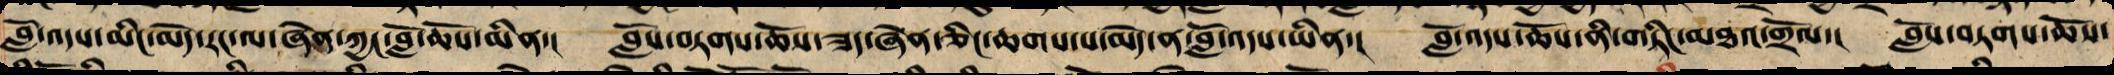བློ་འདས་མིང་མེད་རང་ལ་ཞེན་ཀྱང་བློ་ཆོས་ཡིན་། བློས་བཏགས་ཆོས་ཟད་ཞེན་ཅིང་ཆགས་པ་མེད་ན་བློ་འདས་ཡིན་། བློ་འདས་ཆོས་ནི་གཏིང་མཐའ་གྲོལ་། བློས་བཏགས་ཆོས་
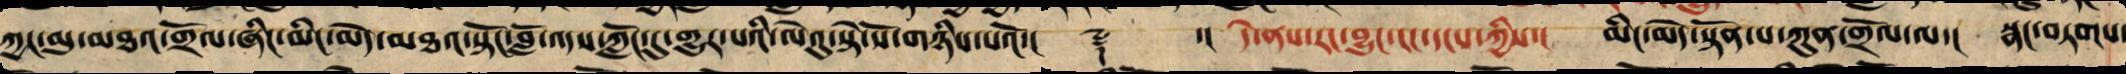ཀྱང་མུ་མཐའ་གྲོལ་ཞིང་མིང་མེད་མཐའ་སྟོང་བློ་འདས་ཀློང་དུ་གྱུར་པའི་ལེའུ་སྟེ་སོ་གཉིས་པའོ་།། ༈ ་།། དེ་ནས་རང་བྱུང་ངང་དངས་ཀྱིས་། མིང་མེད་སྟོན་པ་ཀུན་གྲོལ་ལ་། སྣང་བཏགས་
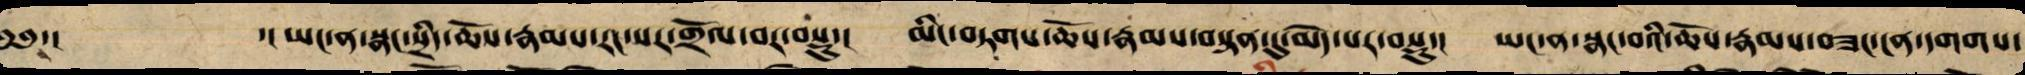༄༅་། ་།ཡང་ན་སྣང་སྲིད་ཆོས་རྣམས་རང་སར་གྲོལ་བར་བསྡུ་། མིང་བཏགས་ཆོས་རྣམས་བསྟན་དུ་མེད་པར་བསྡུ་། ཡང་ན་སྣང་བའི་ཆོས་རྣམས་བཟང་ངན་དགགས་
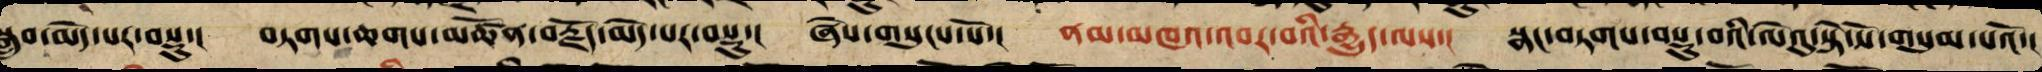སྒྲུབ་མེད་པར་བསྡུ་། བཏགས་ཆགས་མཚོན་བརྗོད་མེད་པར་བསྡུ་། ཞེས་གསུངས་སོ་། ནམ་མཁའ་འབར་བའི་རྒྱུད་ལས་། སྣང་བཏགས་བསྡུ་བའི་ལེའུ་སྟེ་སོ་གསུམ་པའོ་།།
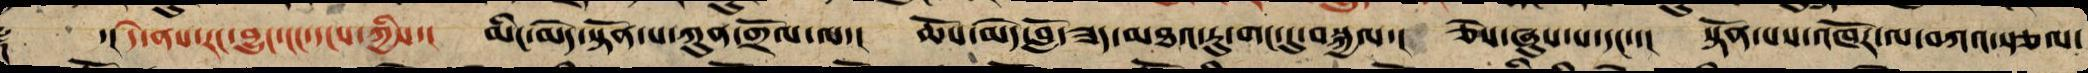༈ ་།། དེ་ནས་རང་བྱུང་ངང་དངས་ཀྱིས་། མིང་མེད་སྟོན་པ་ཀུན་གྲོལ་ལ་། ཆོས་མེད་བློ་ཟད་མཐའ་རུ་གང་དུ་བསྐྱལ་། ཅེས་ཞུས་པ་དང་་། སྟོན་པས་འཁོར་ལ་བཀའ་སྩལ་
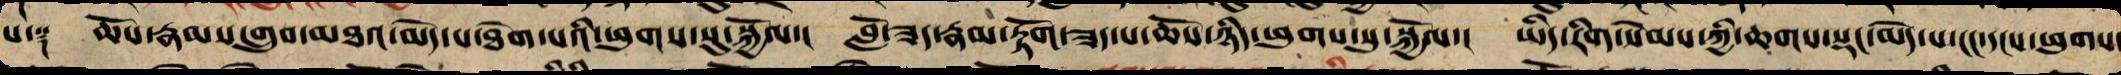པ་༑ ཆོས་རྣམས་གྲུབ་མཐའ་མེད་པ་ཐེག་པའི་ཕུགས་སུ་སྐྱོལ་། བློ་ཟད་རྣམ་རྟོག་ཟད་པ་ཆོས་ཉིད་ཕུགས་སུ་སྐྱོལ་། ཡིད་རིག་སེམས་ཀྱི་ཆགས་སྡང་མེད་པ་ངང་དངས་ཕུགས་
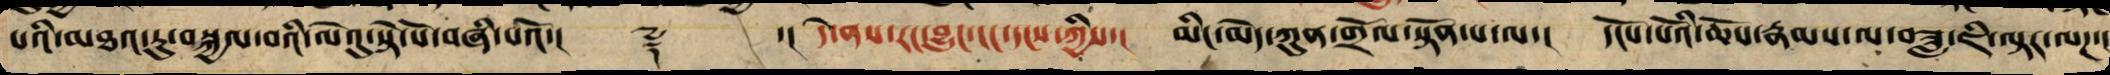པའི་མཐའ་རུ་བསྐྱལ་བའི་ལེའུ་སྟེ་སོ་བཞི་པའོ་།། ༈ ་། དེ་ནས་རང་བྱུང་ངང་དངས་ཀྱིས་། མིང་མེད་སྟོན་པ་ཀུན་གྲོལ་ལ་། དངོས་པོའི་ཆོས་རྣམས་ལ་བཟླ་ཇི་ལྟར་ལཌ་།
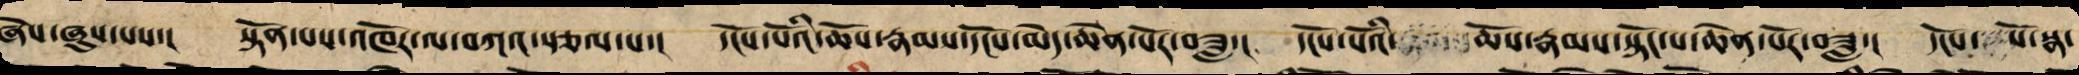ཞེས་ཞུས་པས་། སྟོན་པས་འཁོར་ལ་བཀའ་སྩལ་པ་། དངོས་པོའི་ཆོས་རྣམས་དངོས་མེད་ཆེན་པོར་བཟླ་། དངོས་པོའི་ཆོས་རྣམས་སྟོང་པ་ཆེན་པོར་བཟླ་། དངོས་པོ་སྣ་
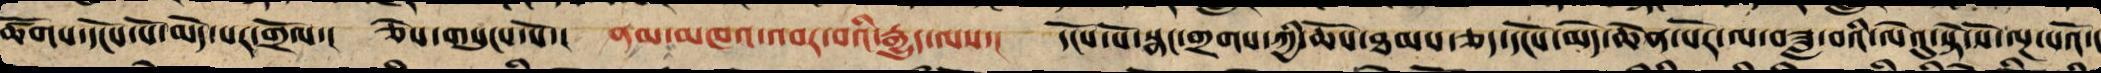ཚོགས་དངོས་པོ་མེད་པར་གྲོལ་། ཅེས་གསུངས་སོ་། ནམ་མཁའ་འབར་བའི་རྒྱུད་ལས་། དངོས་པོ་སྣང་གྲགས་ཀྱི་ཆོས་ཐམས་ཅད་དངོས་མེད་ཆེན་པོར་ལ་བཟླ་བའི་ལེའུ་སྟེ་སོ་ལྔ་པའོ་།།
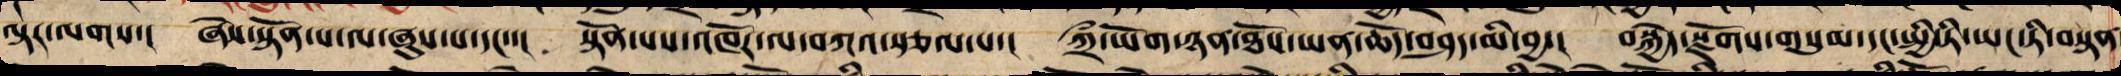ལྟར་ལགས་། ཞེས་སྟོན་པ་ལ་ཞུས་པ་དང་་། སྟོན་པས་འཁོར་ལ་བཀའ་སྩལ་པ་། ཀྲྀ་ཡོག་ཉན་ཐོས་ཡན་ཆོད་བཤད་མི་བྱ་། བསྐྱེད་སྫོགས་གསུམ་དང་སྤྱི་ཏི་ཡང་ཏི་བསྟན
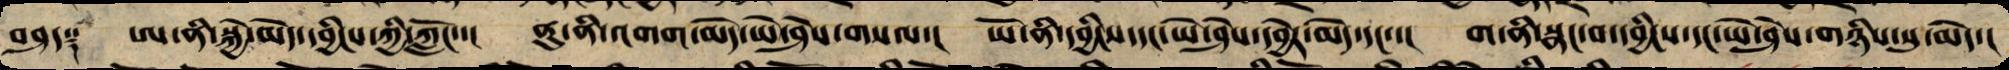བཤད༑ ཨ་ནི་སྐྱེ་མེད་དབྱིངས་ཀྱི་ཀློང་་། ནུ་ནི་འགག་མེད་ཡེ་ཤེས་གསལ་། ཡོ་ནི་དབྱིངས་དང་ཡེ་ཤེས་དབྱེར་མེད་དང་་། ག་ནི་སྣང་བ་དབྱིངས་དང་ཡེ་ཤེས་གཉིས་སུ་མེད་།
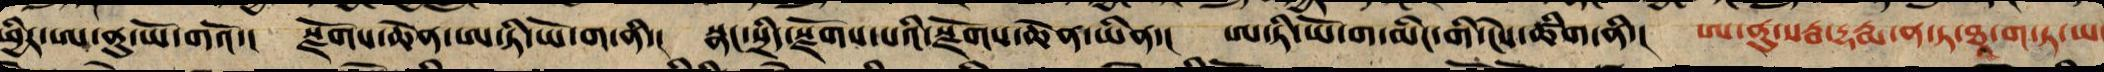ཕྱིར་ཨ་ནུ་ཡོ་གའོ་། སྫོགས་ཆེན་ཨ་ཏི་ཡོ་ག་ནི་། སྣང་སྲིད་སྫོགས་པས་སྫོགས་ཆེན་ཡིན་། ཨ་ཏི་ཡོ་གའི་མིང་གི་ངེས་ཚིག་ནི་། ཨ་ནུ་སརྦ་དྷརྨ་ན་ཏ་ཐཱ་ག་ཏ་ཡ་
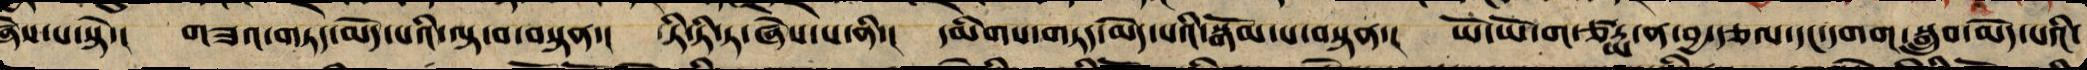ཞེས་པ་སྟེ་། གཟའ་གཏད་མེད་པའི་ལྟ་བ་བསྟན་། ཏི་ཏི་ཏ་ཞེས་པ་ནི་། དམིགས་གཏད་མེད་པའི་བསྒོམ་པ་བསྟན་། ཡོ་ཡོ་ག་ཙརྻཱ་ན་བྱ་རྩལ་དང་དགག་སྒྲུབ་མེད་པའི་
